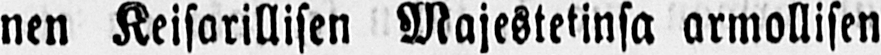nen Keisarillisen Majestetinsa armollisen
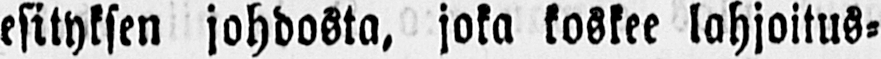esityksen johdosta, joka koskee lahjoitus-
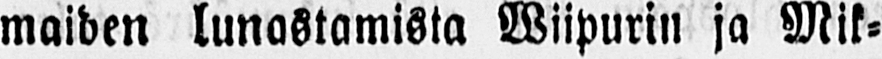maiden lunastamista Wiipurin ja Mik-
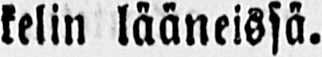kelin lääneissä.
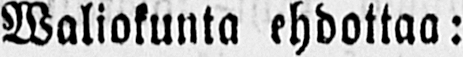Waliokunta ehdottaa:
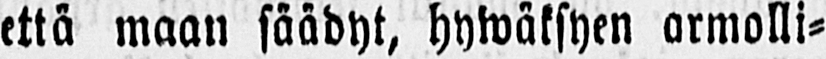että maan säädyt, hywäksyen armolli-
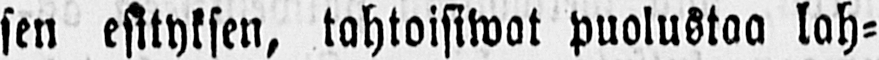sen esityksen, tahtoisiwat puolustaa lah-
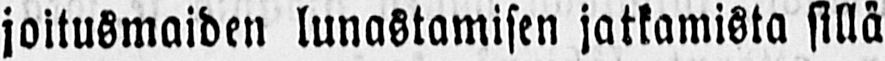joitusmaiden lunastamisen jatkamista sillä
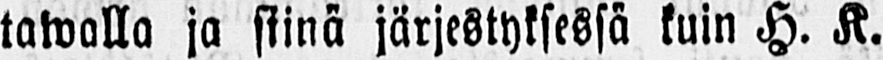tawalla ja siinä järjestyksessä kuin H. K.
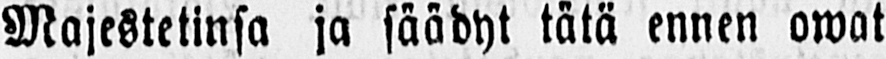Majestetinsa ja säädyt tätä ennen owat
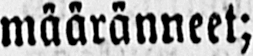määränneet;
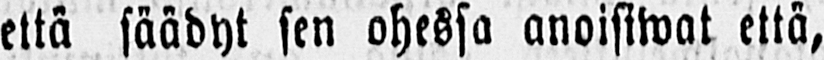että säädyt sen ohessa anoisiwat että,
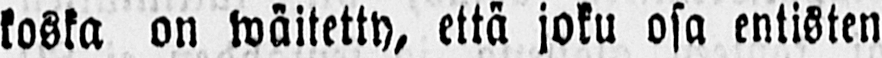koska on wäitetty, että joku osa entisten
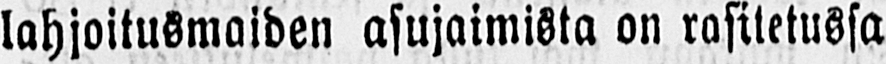lahjoitusmaiden asujaimisto on rasitetussa
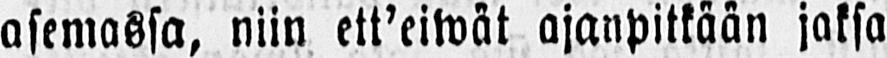asemassa, niin ett'eiwät ajanpitkään jaksa
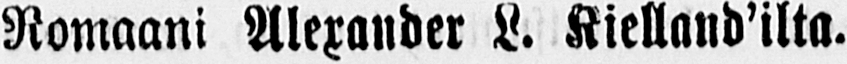Romaani Alexander L. Kielland'ilta.
